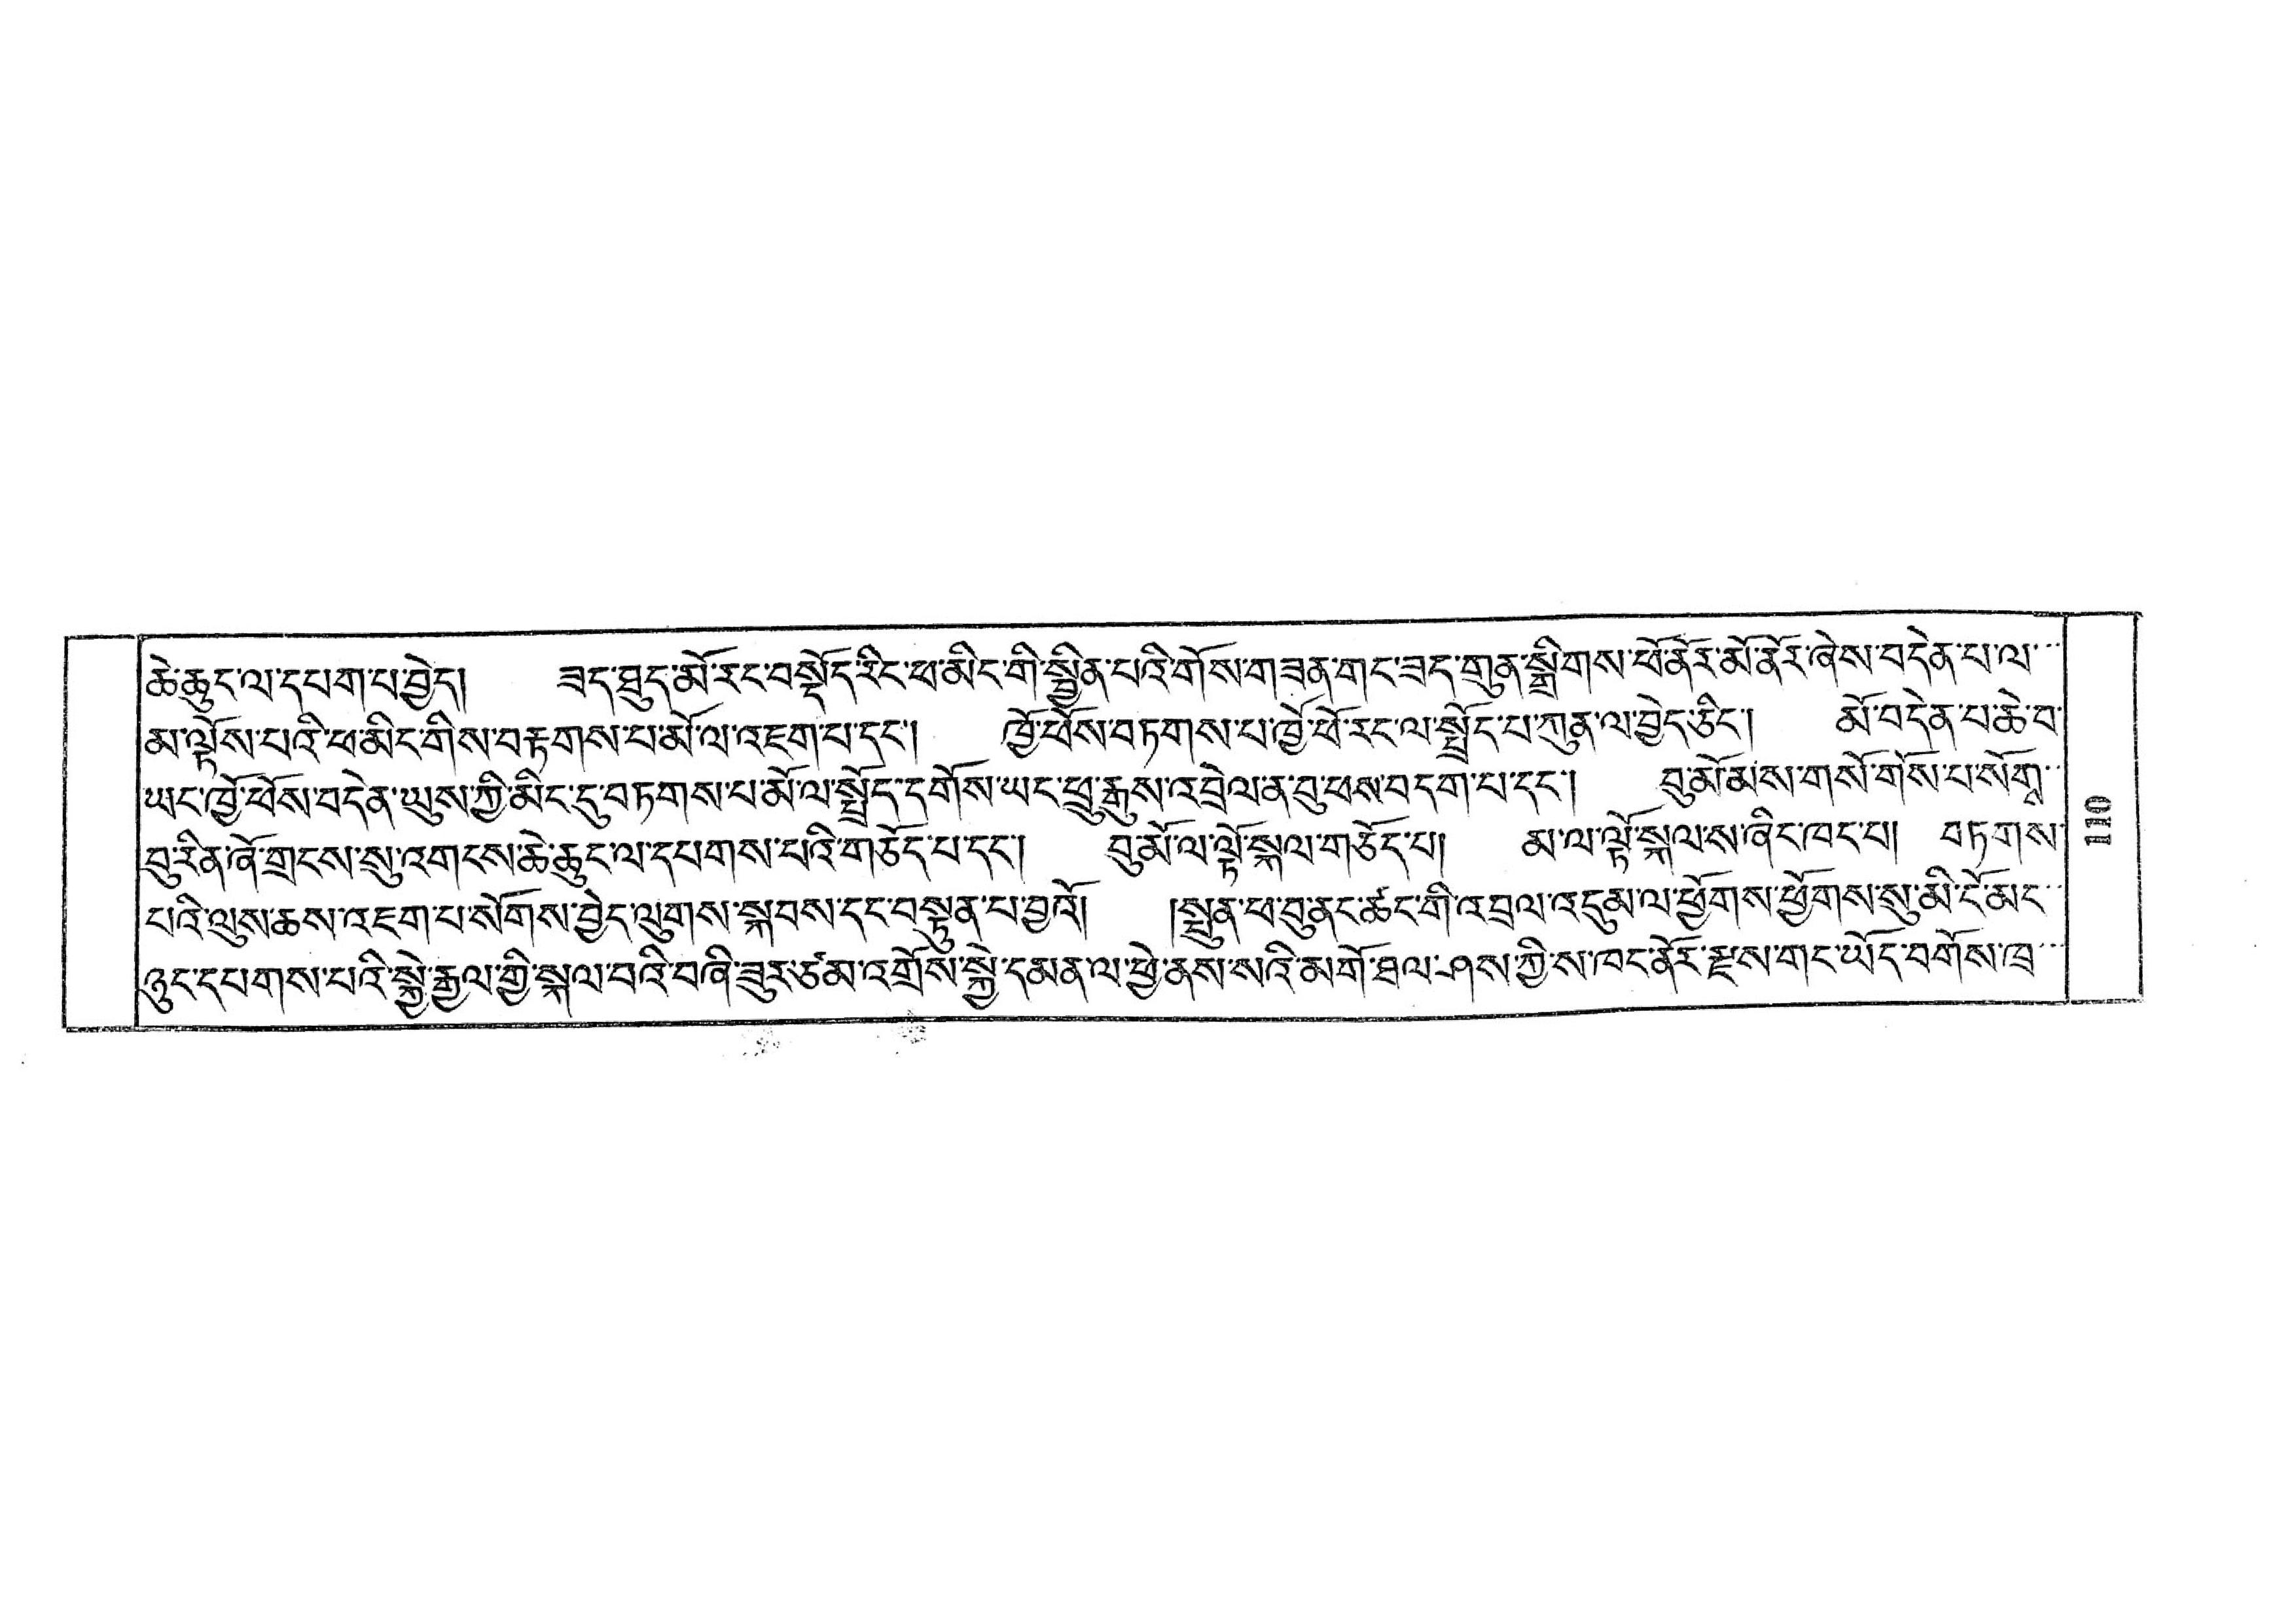ཆེ་ཆུང་ལ་དཔག་པ་བྱེད། ཟད་ཐུད་མོ་རང་བསྡོད་རིང་ཕ་མིང་གི་སྦྱིན་པའི་གོས་གཟན་ཟད་གུན་སྒྲིགས་ཕོ་ནོར་མོ་ནོར་ཞེས་བདེན་པ་ལ་་་
མ་ལྟོས་པའི་ཕ་མིང་གིས་བརྟགས་པ་མོ་ལ་འཇག་པ་དང་། ཁྱོ་ཕོས་བཏགས་པ་ཁྱོ་ཕོ་རང་ལ་སྤྲོད་པ་ཀུན་ལ་བྱེད་ཅིང་། མོ་བདེན་པ་ཆེ་བ་
ཡང་ཁྱོ་ཕོས་བདེན་ཡུས་ཀྱི་མིང་དུ་བཏགས་པ་མོ་ལ་སྤྲོད་དགོས་ཡང་ཕྲུ་རྒུས་འབྲེལ་ན་བུ་ཕས་བདག་པ་དང་། བ་མོ་མས་གསོ་གོས་པ་སོགས་་
བུ་རིན་ཞོ་གྲངས་སུ་འགངས་ཆེ་ཆུང་ལ་དཔགས་པའི་གཅོད་པ་དང་། བ་མོ་ལ་ལྟོ་སྐལ་གཅོད་པ། མ་ལ་ལྟོ་སྐལ་ས་ཞིང་ཁང་པ། བཏགས་
པའི་ལུས་ཆས་འཇག་པ་སོགས་བྱེད་ལུགས་སྐབས་དང་བསྟུན་པ་བྱའོ། །སྤུན་ཕ་བུ་ནང་ཚང་གི་འབྲལ་འདུམ་ལ་ཕྱོགས་ཕྱོགས་སུ་མི་ངོ་མང་་
ཉུང་དཔགས་པའི་སྐྱེ་རྒྱལ་གྱི་སྐལ་བའི་བཞི་ཟུར་ཙམ་འགྲོས་སྐྱེ་དམན་ལ་ཕྱེ་ནས་སའི་མགོ་ཐལ་ཤས་ཀྱི་ས་ཁང་རྫས་གང་ཡོད་བགོས་ཁྲ་་་
